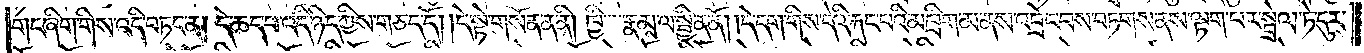གང་ཞིག་གིས་འདི་བཏང་ན། དེ་ཆད་པ་འདི་ཉིད་ཀྱིས་གཅད་དོ། །དེ་སྟེ་གསོན་ན་ནི། ཁྱི་རྣམས་ལ་སྦྱིན་ནོ། །དེ་དག་གིས་དེའི་རྐང་པའི་མཁྲིག་མ་ནས་འབྲེང་བས་བཏགས་ནས་ལྟག་པར་སྤྲེལ་ཏེ་དུར་
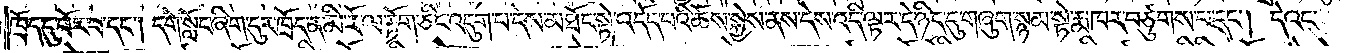ཁྲོད་དུ་བོར་བ་དང༌། དགེ་སློང་ཞིག་དུར་ཁྲོད་ན་མི་རོ་ལ་རྟོག་ཅིང་འདུག་པ་དེས་མཐོང་སྟེ། འདོད་པའི་ཆོས་སྐྱེས་ནས་དེས་འདི་ལྟར་དེ་ཉིད་དུ་གཞུག་སྙམ་སྟེ་རྨ་ཁར་བཙུགས་པ་དང༌། དེའང་
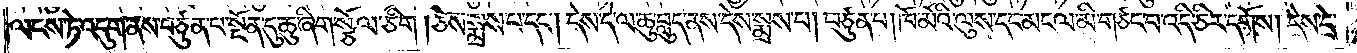ལངས་ཏེ་འདུག་ནས་བཙུན་པ་སྔོན་དུ་ཆུ་ཞིག་སྩོལ་ཅིག །ཅེས་སྨྲས་པ་དང༌། དེས་དེ་ལ་ཆུ་བླུད་ནས་དེས་སྨྲས་པ། བཙུན་པ། །ཁོ་མོའི་ལུས་དང་མངལ་མི་གཙང་བ་འདི་ཅིར་དགོས། དེས་དེ་
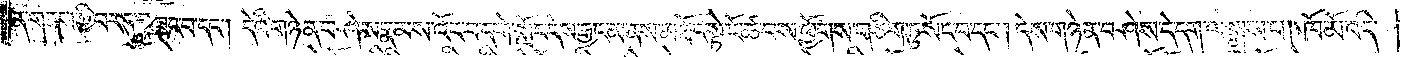ན་གནས་ཀྱིས་བར་དུ་བཟུང་བ་དང༌། དེའི་གཉེན་བཤེས་རྣམས་འོང་བ་དགེ་སློང་དེས་རྒྱང་མ་ནས་མཐོང་སྟེ་ངོ་ཚ་བས་ཕྱོགས་གཅིག་ཏུ་སོང་བ་དང༌། དེས་གཉེན་བཤེས་དེ་དག་ལ་སྨྲས་པ། ཁོ་མོ་འདི་
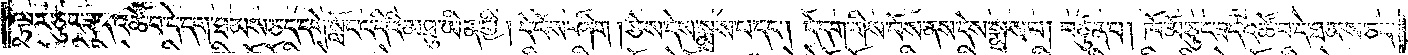ལྟར་ཅུང་ཟད་འཚོ་བ་དེ་དག་ཐམས་ཅད་དགེ་སློང་འདིའི་མཐུ་ཡིན་གྱི། དེ་བོས་ཤིག །ཅེས་དེས་སྨྲས་པ་དང༌། དེ་དག་གིས་བོས་ནས་དེས་སྨྲས་པ། བཙུན་པ། ཁོ་མོ་ཅུང་ཟད་འཚོ་བ་དེ་ཐམས་ཅད་
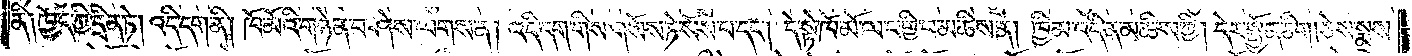ནི༑ ཁྱོད་ཀྱི་དྲིན་ཏེ། འདི་དག་ནི། ཁོ་མོའི་གཉེན་བཤེས་ལགས་ན། འདི་དག་གིས་གསོས་ཏེ་སོས་པ་དང༌། དེ་སྟེ་ཁོ་མོ་ལ་བགྱི་བ་མཆིས་ན། ཁྱིམ་འདི་ན་མཆིས་ཀྱི། དེར་སྤྱོན་ཅིག །ཅེས་སྨྲས་
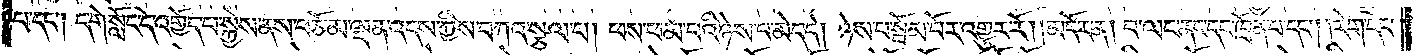པ་དང༌། དགེ་སློང་དེ་འགྱོད་པ་སྐྱེས་ནས་བཅོམ་ལྡན་འདས་ཀྱིས་བཀའ་སྩལ་པ། ཕས་ཕམ་པའི་ཉེས་པ་མེད་དེ། ཉེས་པ་སྦོམ་པོར་འགྱུར་རོ། །མདོར་ན། བ་ལང་ནང་དང་ཁྲོན་པ་དང༌། །རེག་དང་
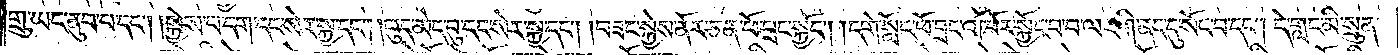གྲུ་ཡང་ནུབ་པ་དང༌། །སྐྱེས་པ་དག་དང་སེར་སྐྱ་དང༌། །བུད་མེད་བུ་དང་སེར་སྐྱ་དང༌། །བཟང་སྐྱེས་ནོར་ཅན་ཕོ་བྲང་སྐྱོང༌། །དགེ་སློང་ཕོ་བྲང་འཁོར་སྐྱོང་བ་བ་ལང་གི་ནང་དུ་སོང་བ་དང༌། དེ་གླང་མི་སྲུན་
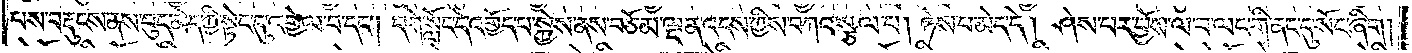པས་བརྡུངས་ནས་བུད་མེད་ཀྱི་སྟེང་དུ་འགྱེལ་བ་དང༌། དགེ་སློང་དེ་འགྱོད་པ་སྐྱེས་ནས་བཅོམ་ལྡན་འདས་ཀྱིས་བཀའ་སྩལ་པ། ཉེས་པ་མེད་དེ། །ཤེས་པར་བྱོས་ལ་བ་ལང་གི་ནང་དུ་སོང་ཞིག །
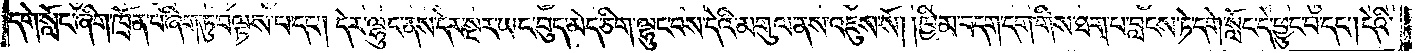དགེ་སློང་ཞིག་ཁྲོན་པ་ཞིག་ཏུ་བལྟས་པ་དང༌། དེར་ལྷུང་ནས་དེར་སྔར་ཡང་བུད་མེད་ཅིག་ལྷུང་བས་དེའི་མགུལ་ནས་འཇུས་སོ། །ཁྱིམ་བདག་དག་གིས་ཐག་པ་བླངས་ཏེ་དགེ་སློང་དེ་ཕྱུང་བ་དང༌། དེའི་
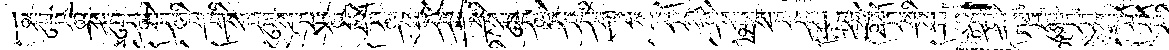མགུལ་ནས་བུད་མེད་ཅིག་གིས་འཇུས་པར་མཐོང་ནས་དེ་དག་གིས་བུད་མེད་འདི་ག་ལས་འོངས་ཞེས་སྨྲས་པ་དང༌། དགེ་སློང་གིས། འདི་ནི། སྔར་ལྷུང་བས་ཁོ་བོའི་
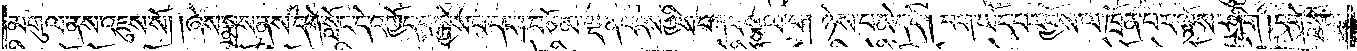མགུལ་ནས་འཇུས་སོ། །ཞེས་སྨྲས་ནས་དགེ་སློང་དེ་འགྱོད་པ་སྐྱེས་པ་དང༌། བཅོམ་ལྡན་འདས་ཀྱིས་བཀའ་སྩལ་པ། ཉེས་པ་མེད་དེ། བག་ཡོད་པར་བྱོས་ལ་ཁྲོན་པར་ལྟོས་ཤིག །དགེ་སློང་
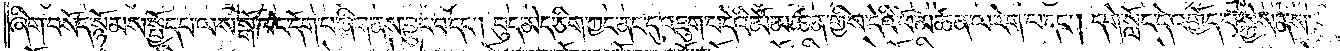ཞིག་བསོད་སྙོམས་སྤྱོད་པ་ལས་སྒོ་ཁང་དོག་པ་ཞིག་ནས་བྱུང་བ་དང༌། བུད་མེད་ཅིག་ཀྱང་ནང་དུ་འཇུག་པ་དེའི་མོ་མཚན་གྱིས་དེའི་ཕོ་མཚན་ལ་རེག་པ་དང༌། དགེ་སློང་དེ་འགྱོད་པ་སྐྱེས་ནས་
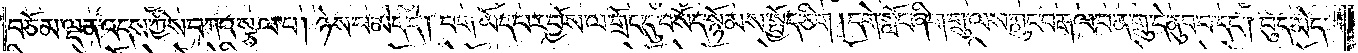བཅོམ་ལྡན་འདས་ཀྱིས་བཀའ་སྩལ་པ། ཉེས་པ་མེད་དེ། བག་ཡོད་པར་བྱོས་ལ་གྲོང་དུ་བསོད་སྙོམས་སྤྱོད་ཅིག །དགེ་སློང་ཞིག་གྲུ་ལས་ཀླུང་བརྒལ་བ་ན་གྲུ་དེ་ནུབ་པ་དང༌། བུད་མེད་
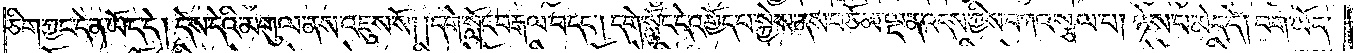ཅིག་ཀྱང་དེ་ན་ཡོད་དེ། དེས་དེའི་མགུལ་ནས་འཇུས་སོ། །དགེ་སློང་བརྒལ་བ་དང༌། དགེ་སློང་དེ་འགྱོད་པ་སྐྱེས་ནས་བཅོམ་ལྡན་འདས་ཀྱིས་བཀའ་སྩལ་པ། ཉེས་པ་མེད་དེ། བག་ཡོད་
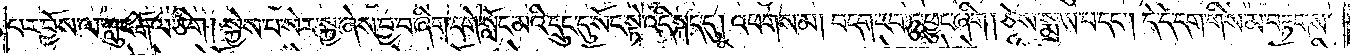པར་བྱོས་ལ་ཀླུང་རྒོལ་ཅིག །སྐྱེས་པ་སེར་སྐྱ་ཞེས་བྱ་བ་ཞིག་དགེ་སློང་མའི་དྲུང་དུ་སོང་སྟེ་འདི་སྐད་དུ། འཕགས་མ། བདག་ཏུ་ཕྱུང་ཞིག །ཅེས་སྨྲས་པ་དང༌། དེ་དེ་དག་གིས་མ་བརྟགས་
